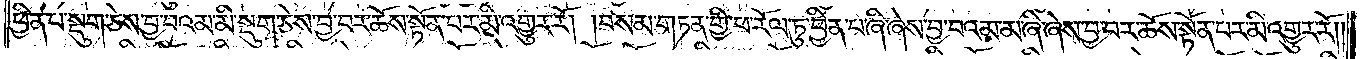ཕྱིན་པ་སྡུག་ཅེས་བྱ་བའམ་མི་སྡུག་ཅེས་བྱ་བར་ཆོས་སྟོན་པར་མི་འགྱུར་རོ། །བསམ་གཏན་གྱི་ཕ་རོལ་ཏུ་ཕྱིན་པ་ཞི་ཞེས་བྱ་བའམ་མ་ཞི་ཞེས་བྱ་བར་ཆོས་སྟོན་པར་མི་འགྱུར་རོ། །
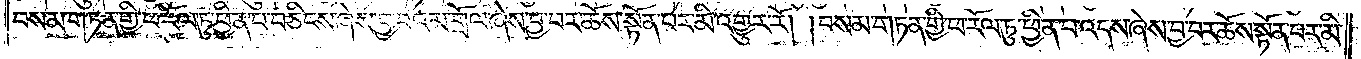བསམ་གཏན་གྱི་ཕ་རོལ་ཏུ་ཕྱིན་པ་བཅིངས་ཞེས་བྱ་བའམ་གྲོལ་ཞེས་བྱ་བར་ཆོས་སྟོན་པར་མི་འགྱུར་རོ། །བསམ་གཏན་གྱི་ཕ་རོལ་ཏུ་ཕྱིན་པ་འདས་ཞེས་བྱ་བར་ཆོས་སྟོན་པར་མི་
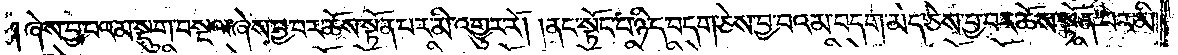ཞེས་བྱ་བའམ་སྡུག་བསྔལ་ཞེས་བྱ་བར་ཆོས་སྟོན་པར་མི་འགྱུར་རོ། །ནང་སྟོང་པ་ཉིད་བདག་ཅེས་བྱ་བའམ་བདག་མེད་ཅེས་བྱ་བར་ཆོས་སྟོན་པར་མི་
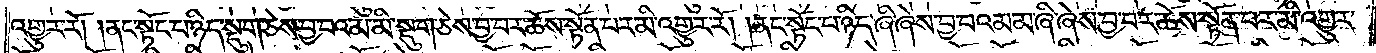འགྱུར་རོ། །ནང་སྟོང་པ་ཉིད་སྡུག་ཅེས་བྱ་བའམ་མི་སྡུག་ཅེས་བྱ་བར་ཆོས་སྟོན་པར་མི་འགྱུར་རོ། །ནང་སྟོང་པ་ཉིད་ཞི་ཞེས་བྱ་བའམ་མ་ཞི་ཞེས་བྱ་བར་ཆོས་སྟོན་པར་མི་འགྱུར་
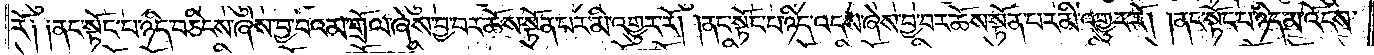རོ༑ ༑ནང་སྟོང་པ་ཉིད་བཅིངས་ཞེས་བྱ་བའམ་གྲོལ་ཞེས་བྱ་བར་ཆོས་སྟོན་པར་མི་འགྱུར་རོ། །ནང་སྟོང་པ་ཉིད་འདས་ཞེས་བྱ་བར་ཆོས་སྟོན་པར་མི་འགྱུར་རོ། །ནང་སྟོང་པ་ཉིད་མ་འོངས་
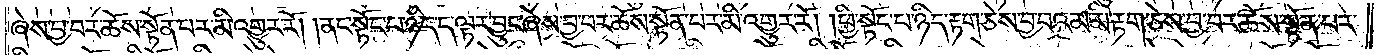ཞེས་བྱ་བར་ཆོས་སྟོན་པར་མི་འགྱུར་རོ། །ནང་སྟོང་པ་ཉིད་ད་ལྟར་བྱུང་ཞེས་བྱ་བར་ཆོས་སྟོན་པར་མི་འགྱུར་རོ། །ཕྱི་སྟོང་པ་ཉིད་རྟག་ཅེས་བྱ་བའམ་མི་རྟག་ཅེས་བྱ་བར་ཆོས་སྟོན་པར་
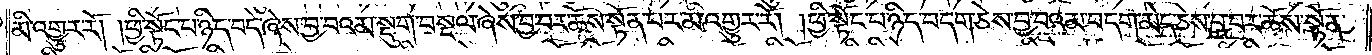མི་འགྱུར་རོ། །ཕྱི་སྟོང་པ་ཉིད་བདེ་ཞེས་བྱ་བའམ་སྡུག་བསྔལ་ཞེས་བྱ་བར་ཆོས་སྟོན་པར་མི་འགྱུར་རོ། །ཕྱི་སྟོང་པ་ཉིད་བདག་ཅེས་བྱ་བའམ་བདག་མེད་ཅེས་བྱ་བར་ཆོས་སྟོན་
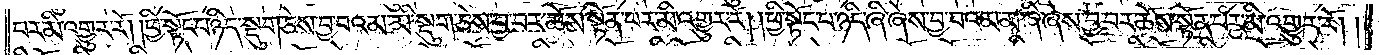པར་མི་འགྱུར་རོ། །ཕྱི་སྟོང་པ་ཉིད་སྡུག་ཅེས་བྱ་བའམ་མི་སྡུག་ཅེས་བྱ་བར་ཆོས་སྟོན་པར་མི་འགྱུར་རོ། །ཕྱི་སྟོང་པ་ཉིད་ཞི་ཞེས་བྱ་བའམ་མ་ཞི་ཞེས་བྱ་བར་ཆོས་སྟོན་པར་མི་འགྱུར་རོ། །
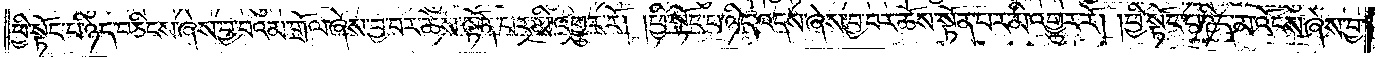ཕྱི་སྟོང་པ་ཉིད་བཅིངས་ཞེས་བྱ་བའམ་གྲོལ་ཞེས་བྱ་བར་ཆོས་སྟོན་པར་མི་འགྱུར་རོ། །ཕྱི་སྟོང་པ་ཉིད་འདས་ཞེས་བྱ་བར་ཆོས་སྟོན་པར་མི་འགྱུར་རོ། །ཕྱི་སྟོང་པ་ཉིད་མ་འོངས་ཞེས་བྱ་
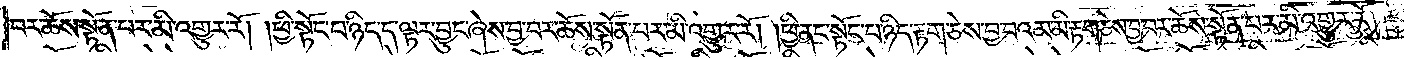བར་ཆོས་སྟོན་པར་མི་འགྱུར་རོ། །ཕྱི་སྟོང་པ་ཉིད་ད་ལྟར་བྱུང་ཞེས་བྱ་བར་ཆོས་སྟོན་པར་མི་འགྱུར་རོ། །ཕྱི་ནང་སྟོང་པ་ཉིད་རྟག་ཅེས་བྱ་བའམ་མི་རྟག་ཅེས་བྱ་བར་ཆོས་སྟོན་པར་མི་འགྱུར་རོ། །ཕྱི་
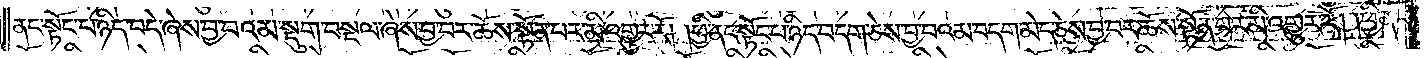ནང་སྟོང་པ་ཉིད་བདེ་ཞེས་བྱ་བའམ་སྡུག་བསྔལ་ཞེས་བྱ་བར་ཆོས་སྟོན་པར་མི་འགྱུར་རོ། །ཕྱི་ནང་སྟོང་པ་ཉིད་བདག་ཅེས་བྱ་བའམ་བདག་མེད་ཅེས་བྱ་བར་ཆོས་སྟོན་པར་མི་འགྱུར་རོ། །ཕྱི་ནང་
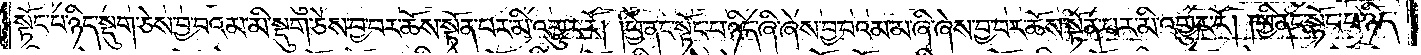སྟོང་པ་ཉིད་སྡུག་ཅེས་བྱ་བའམ་མི་སྡུག་ཅེས་བྱ་བར་ཆོས་སྟོན་པར་མི་འགྱུར་རོ། །ཕྱི་ནང་སྟོང་པ་ཉིད་ཞི་ཞེས་བྱ་བའམ་མ་ཞི་ཞེས་བྱ་བར་ཆོས་སྟོན་པར་མི་འགྱུར་རོ། །ཕྱི་ནང་སྟོང་པ་ཉིད་
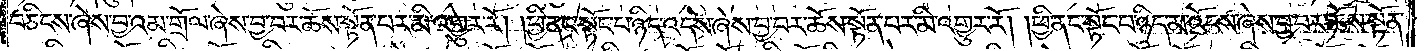བཅིངས་ཞེས་བྱ་བའམ་གྲོལ་ཞེས་བྱ་བར་ཆོས་སྟོན་པར་མི་འགྱུར་རོ། །ཕྱི་ནང་སྟོང་པ་ཉིད་འདས་ཞེས་བྱ་བར་ཆོས་སྟོན་པར་མི་འགྱུར་རོ། །ཕྱི་ནང་སྟོང་པ་ཉིད་མ་འོངས་ཞེས་བྱ་བར་ཆོས་སྟོན་
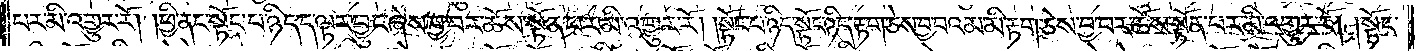པར་མི་འགྱུར་རོ། །ཕྱི་ནང་སྟོང་པ་ཉིད་ད་ལྟར་བྱུང་ཞེས་བྱ་བར་ཆོས་སྟོན་པར་མི་འགྱུར་རོ། །སྟོང་པ་ཉིད་སྟོང་པ་ཉིད་རྟག་ཅེས་བྱ་བའམ་མི་རྟག་ཅེས་བྱ་བར་ཆོས་སྟོན་པར་མི་འགྱུར་རོ། །སྟོང་
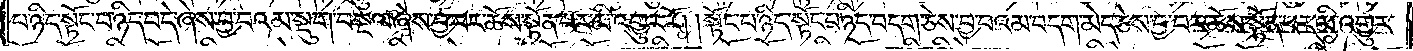པ་ཉིད་སྟོང་པ་ཉིད་བདེ་ཞེས་བྱ་བའམ་སྡུག་བསྔལ་ཞེས་བྱ་བར་ཆོས་སྟོན་པར་མི་འགྱུར་རོ། །སྟོང་པ་ཉིད་སྟོང་པ་ཉིད་བདག་ཅེས་བྱ་བའམ་བདག་མེད་ཅེས་བྱ་བར་ཆོས་སྟོན་པར་མི་འགྱུར་
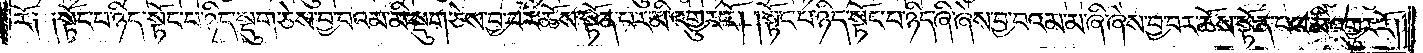རོ༑ ༑སྟོང་པ་ཉིད་སྟོང་པ་ཉིད་སྡུག་ཅེས་བྱ་བའམ་མི་སྡུག་ཅེས་བྱ་བར་ཆོས་སྟོན་པར་མི་འགྱུར་རོ། །སྟོང་པ་ཉིད་སྟོང་པ་ཉིད་ཞི་ཞེས་བྱ་བའམ་མ་ཞི་ཞེས་བྱ་བར་ཆོས་སྟོན་པར་མི་འགྱུར་རོ། །
